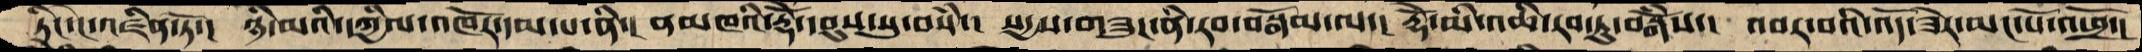ཏིང་ངེ་འཛིན་ཏོ་། ཉི་མའི་དཀྱིལ་འཁོར་དམ་པ་ནི་། ནམཁའི་རྡོེ་དབུས་སུ་བསཾ་། སདྱས་གཟུང་ནི་རབ་བསྒོམ་ལ་། རྡོེ་མི་འཆི་རབ་ཏུ་བསྒོཾས་། འབར་བའི་འོད་ཟེར་མང་པོ་འཕྲོ་།
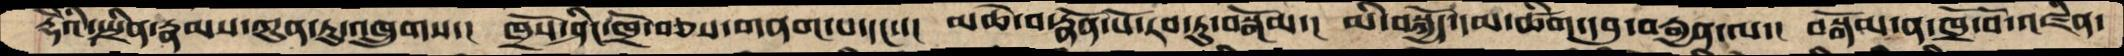རྡོེའི་སྤྲིན་རྣམས་ཀུན་ཏུ་འཁྲུགས་།  ཁྲོས་ཤིང་ཁྲོ་བཅས་གནག་པ་དང་་།  མཆེ་བ་རྣོན་པོ་རབ་ཏུ་བསྒོམ་།  མི་བསྐྱོད་དམ་ཚིག་དབུ་བརྒྱན་ལ་།  བསྒོམ་ན་ཁྲོ་བོ་འཛིན་
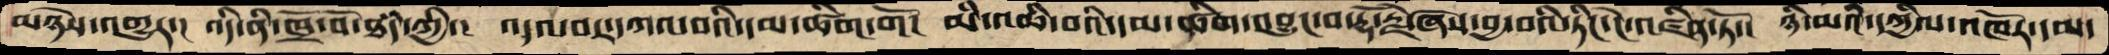མཉེས་འགྱུར་།  འདི་ནི་ཁྲོ་བོ་ཐཾད་ཀྱི་།  འདའ་བར་དཀའ་བའིདམ་ཚིག་གོ།  མི་འཆི་བའི་དམ་ཚིག་འབྱུང་བ་རྡོ་རྗེ་ཞེས་བྱ་བའི་ཏིང་ངེ་འཛིན་ཏོ་།  ཉི་མའི་དཀྱིལ་འཁོར་ལ་
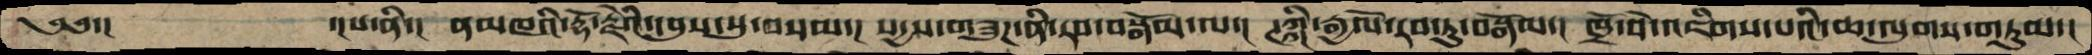༄༅་།   ་།པ་ནི་།  ནམཁའི་རྡོ་རྗེའི་དབུས་སུ་བསམ་།  སདྱས་གཟུཌ་ནི་རབ་བསྒོམ་ལ་།  ཊཀྐི་རྒྱལོ་རབ་ཏུ་བསྒོམ་།  ཁྲོ་བོ་འཇིགས་པའི་ཆ་ལུགས་གཏུམ་།
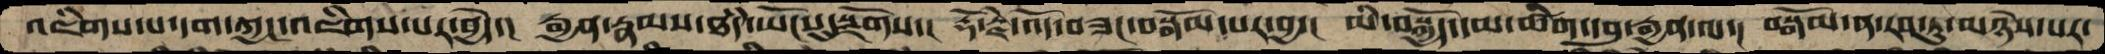འཇིགས་པ་དག་ཀྱང་འཇིགས་པར་བྱེད་།  རྒྱན་རྣམས་ཐཾད་ཡོངསུ་སྫོགས་།  རྡོ་རྗེ་འོད་བཟང་བསྒོམ་པར་བྱ་།  མི་བསྐྱོད་དམ་ཚིག་དབུ་རྒྱན་ལ་།  བསྒོམ་ན་རབ་ཏུ་མཉེས་པར་
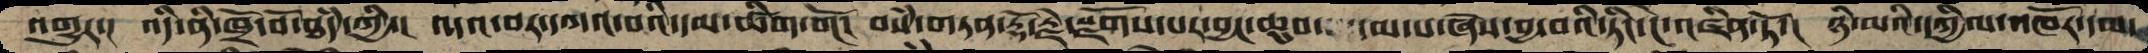འགྱུར་།  འདི་ནི་ཁྲོ་བོ་ཐཾད་ཀྱིས་།  འདའ་བར་དཀའ་བའི་དམ་ཚིག་གོ་།  བསཾ་གཏན་རྡོ་རྗེ་སྫོགས་པར་བྱང་ཆུབ་  དམ་པ་ཞེས་བྱ་བའི་ཏིང་ངེ་འཛིན་ཏོ་།  ཉི་མའི་དཀྱིལ་འཁོར་དམ་
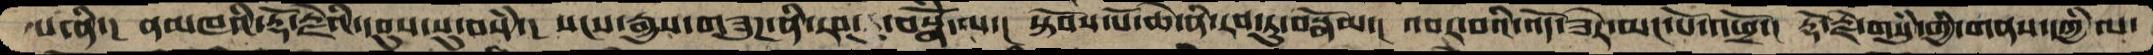པ་ནི་། ནམཁའི་རྡོ་རྗེའི་དབུས་སུ་བསཾ་། སངས་རྒྱས་གཟུཌ་ནི་རབ་ བསྒོཾ་ལ་། སྟོབས་པོ་ཆེ་ནི་རབ་ཏུ་བསྒོམ་། འབར་བའི་འོད་ཟེར་མང་པོ་འཕྲོ་། རྡོ་རྗེ་གསུཾ་གྱི་གནས་དཀྱིལ་
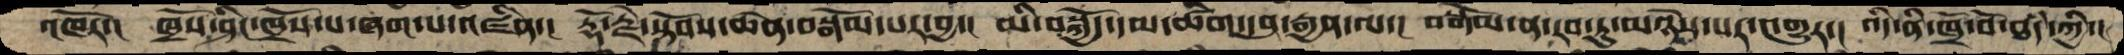འཁོར་།  ཁྲོས་ཤིང་ཁྲོས་པ་ཞག་པ་འཛིན་། རྡོ་རྗེ་སྟོབས་ཆེན་བསྒོམ་པར་བྱ་། མི་བསྐྱོད་དམ་ཚིག་དབུ་རྒྱན་ལ་། བསྒོམ་ན་རབ་ཏུ་མཉེས་པར་འགྱུར་། འདི་ནི་ཁྲོ་བོ་ཐཾད་ཀྱི་།
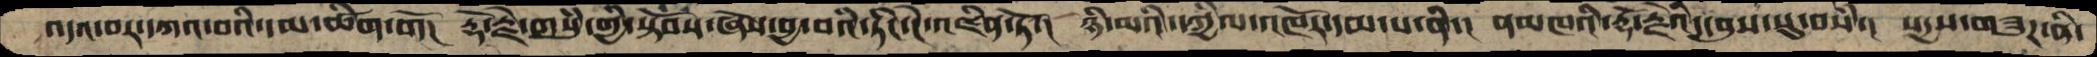འདའ་བར་དཀའ་བའི་དམ་ཚིག་གོ་།  རྡོ་རྗེ་གསུཾ་གྱི་སྟོབས་ཞེས་བྱ་བའི་ཏིང་ངེ་འཛིན་ཏོ་། ཉི་མའི་དཀྱིལ་འཁོར་དམ་པ་ནི་། ནམཁའི་རྡོ་རྗེ་དབུས་སུ་བསཾ་། སདྱས་གཟུཌ་ནི་
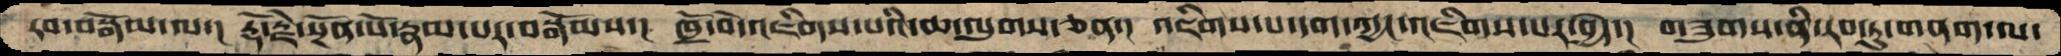རབ་བསྒོམ་ལ་། རྡོ་རྗེ་སྔོན་པོ་རྣམ་པར་བསྒོམས་། ཁྲོ་བོ་འཇིགས་པའི་ཆ་ལུགས་ཅན་། འཇིགས་པ་དག་ཀྱང་འཇིགས་པར་བྱེད་། གཟུགས་ནི་རབ་ཏུ་གནག་ལ་
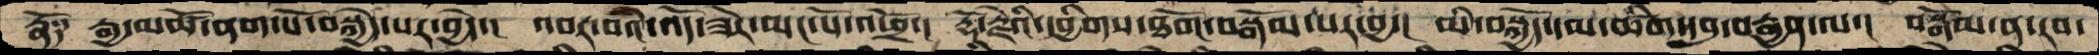རྣོ༑ རྒྱ་མཚོ་ནག་པོ་བསྐྱེད་པར་བྱེད་།  འབར་བའི་འོད་ཟེར་མང་པོ་འཕྲོ་།  རྡོ་རྗེའི་དབྱིགས་ཐོག་བསྒོམ་པར་བྱ་།  མི་བསྐྱོད་དམ་ཚིག་དབུ་བརྒྱན་ལ་།  བསྒོམ་ན་རབ་
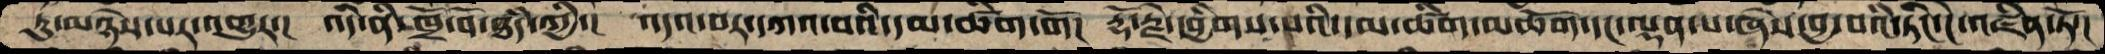ཏུ་མཉེས་པར་འགྱུར་།  འདི་ནི་ཁྲོ་བོ་ཐཾད་ཀྱི་།  འདའ་བར་དཀའ་བའི་དམ་ཚིག་གོ།  རྡོ་རྗེ་དབྱིགས་པའི་དམ་ཚིག་མཆོག་དང་ལྡན་པ་ཞེས་བྱ་བའི་ཏིང་ངེ་འཛིན་ཏོ་།
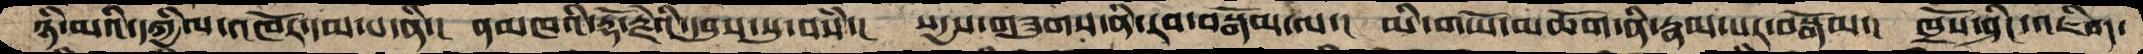ཉི་མའི་དཀྱིལ་འཁོར་དམ་པ་ནི་།  ནམཁའི་རྡོ་རྗེའི་དབུས་སུ་བསཾ་།  སདྱས་གཟུགས་ནི་རབ་བསྒོམ་ལ་།  མི་གཡོ་མཆོག་ནི་རྣམ་པར་བསྒོམ་།  ཁྲོས་ཤིང་འཇིག་
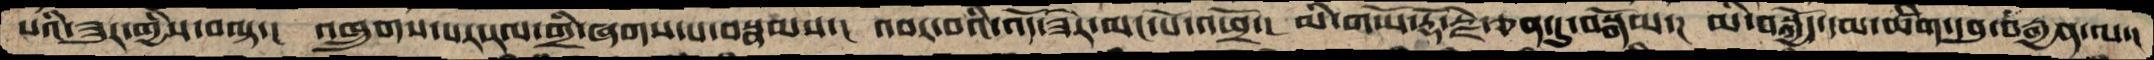པའི་ཟུར་གྱིས་བལྟ་།  འཁྲུགས་པར་རལ་གྲི་ཞགས་པ་བསྣམས་།  འབར་བའི་འོད་ཟེར་མང་པོ་འཕྲོ་།  མི་གཡོ་རྡོ་རྗེ་ཅན་དུ་བསྒོམ་།  མི་བསྐྱོད་དམ་ཚིག་དབུ་བརྒྱན་ལ་།
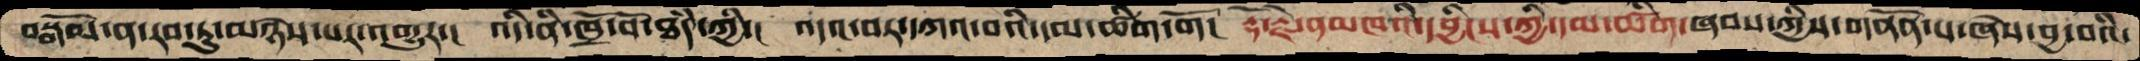བསྒོམ་ན་རབ་ཏུ་མཉེས་པར་འགྱུར་།  འདི་ནི་ཁྲོ་བོ་ཐཾད་ཀྱི་།  འདའ་བར་དཀའ་བའི་དམ་ཚིག་གོ་།  རྡོ་རྗེ་ནམཁའི་དབྱིངས་ཀྱི་དམ་ཚིག་ཞབས་ཀྱིས་གནོན་པ་ཞེས་བྱ་བའི་
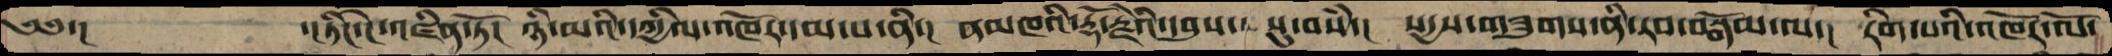༄༅་།  ་།ཏིང་ངེ་འཛིན་ཏོ་།  ཉི་མའི་དཀྱིལ་འཁོར་དམ་པ་ནི་།  ནམཁའི་རྡོ་རྗེའི་དབུས་སུ་བསཾ་།  སདྱས་གཟུགས་ནི་རབ་བསྒོམ་ལ་།  རིག་པའི་འཁོར་ལོ་
